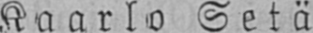Kaarlo Setä.
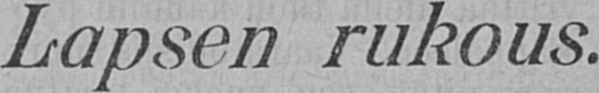Lapsen rukous.
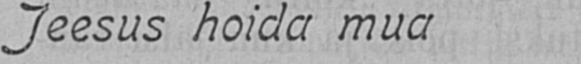Jeesus hoida mua
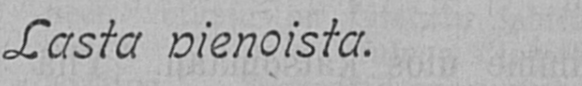Lasta pienoista.
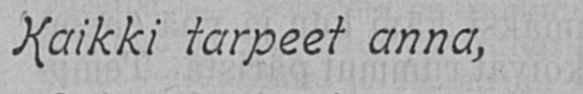Kaikki tarpeet anna,
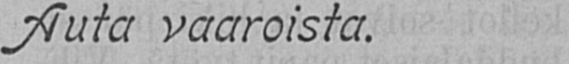Auta vaaroista.
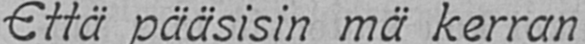Että pääsisin mä kerran
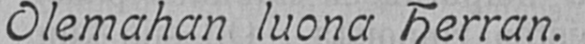Olemahan luona Herran.
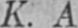K. A.
